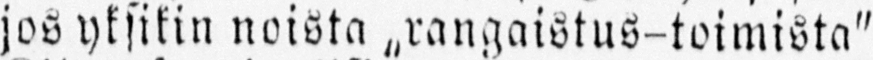jos yksikin noista „rangaistus-toimista"
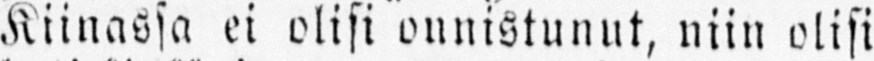Kiinassa ei olisi onnistunut, niin olisi
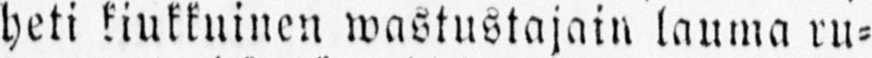heti kiukkuinen wastustajain lauma ru-
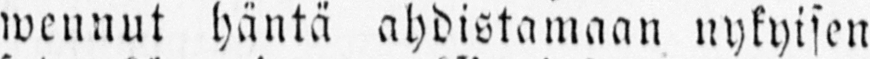wennut häntä ahdistamaan nykyisen
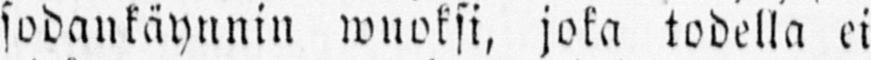sodankäynnin wuoksi, joka todella ei
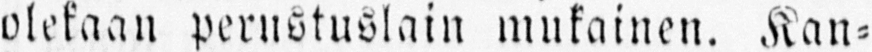olekaan perustuslain mukainen. Kan-
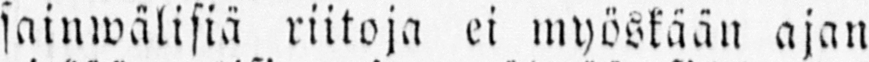sainwälisiä riitoja ei myöskään ajan
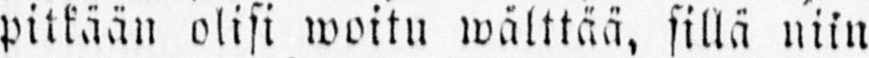pitkään olisi woitu wälttää, sillä niin
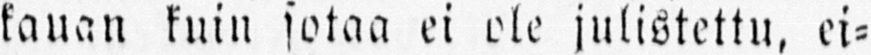kauan kuin sotaa ei ole julistettu, ei-
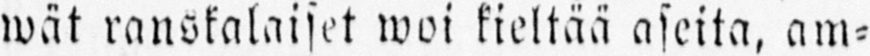wät ranskalaiset woi kieltää aseita, am-
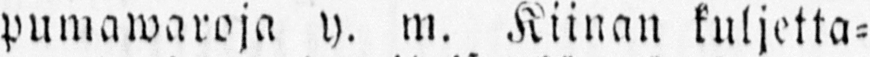pumawaroja y. m. Kiinan kuljetta-
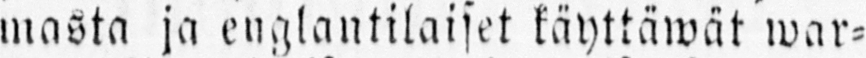masta ja englantilaiset käyttäwät war-
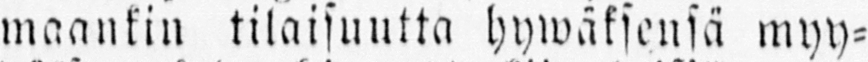maankin tilaisuutta hywäksensä myy-
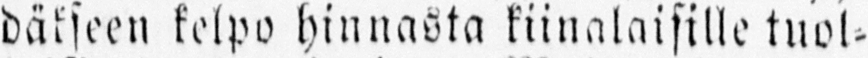däkseen kelpo hinnasta kiinalaisille tuol-
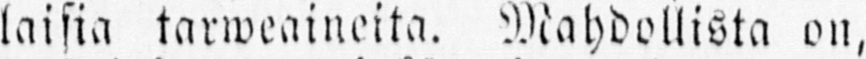laisia tarweaineita. Mahdollista on,
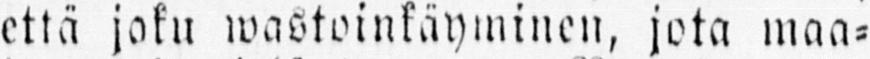että joku wastoinkäyminen, jota maa-
